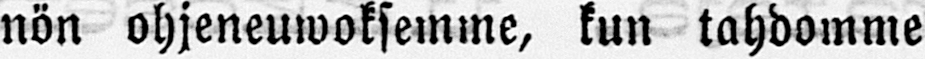nön ohjeneuwoksemme, kun tahdomme
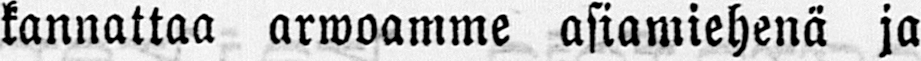kannattaa arwoamme asiamiehenä ja
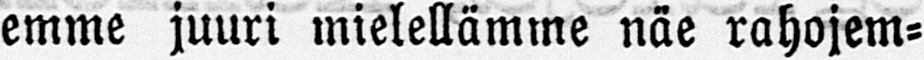emme juuri mielellämme näe rahojem-
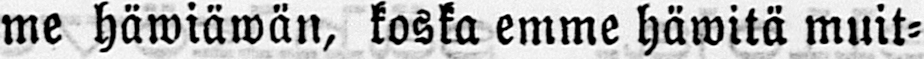me häwiäwän, koska emme häwitä muit-
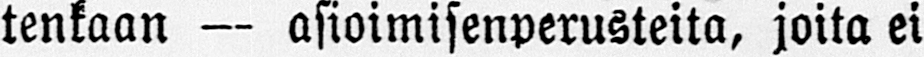tenkaan — asioimisenperusteita, joita ei
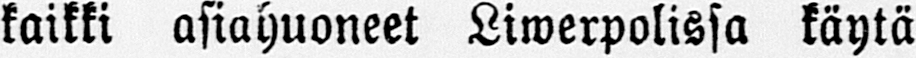kaikki asiahuoneet Liwerpolissa käytä
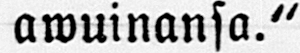awuinansa."
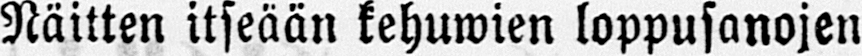Näitten itseään kehuwien loppusanojen
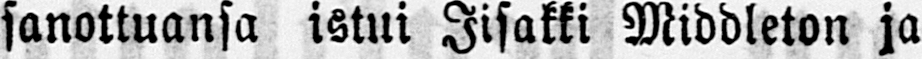sanottuansa istui Iisakki Middleton ja
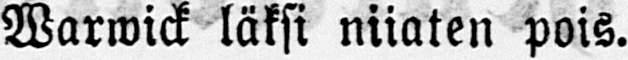Warwick läksi niiaten pois.
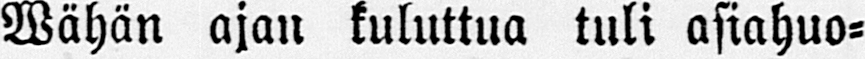Wähän ajan kuluttua tuli asiahuo-
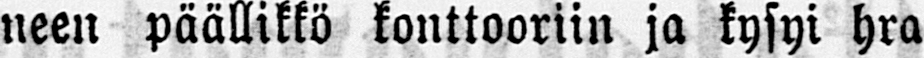neen päällikkö konttooriin ja kysyi hra
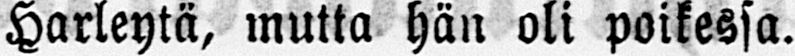Harleytä, mutta hän oli poikessa.
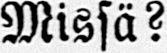Missä?
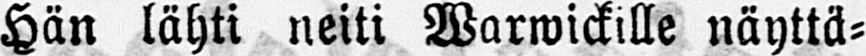Hän lähti neiti Warwickille näyttä-
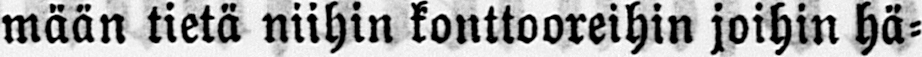mään tietä niihin konttooreihin joihin hä-
